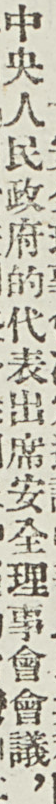中央人民政府的代表出席安全理事會會議，
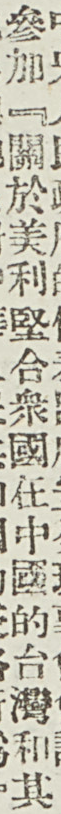參加『關於美利堅合衆國在中國的台灣和其
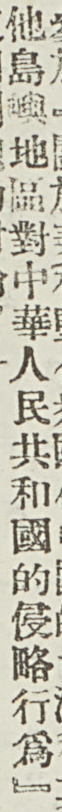他島嶼地區對中華人民共和國的侵略行爲』
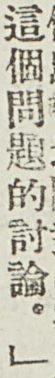這個問題的討論。」
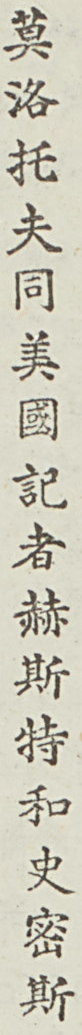莫洛托夫同美國記者赫斯特和史密斯
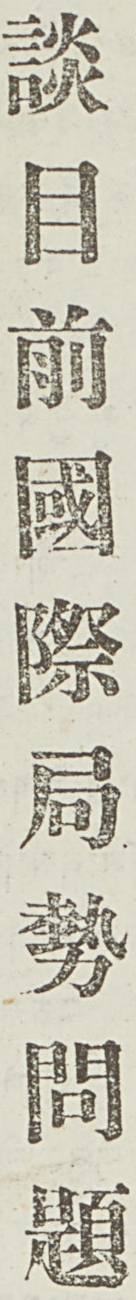談目前國際局勢問題
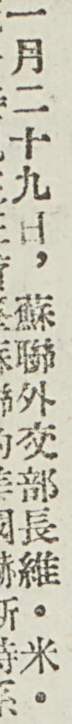一月二十九日，蘇聯外交部長維・米・
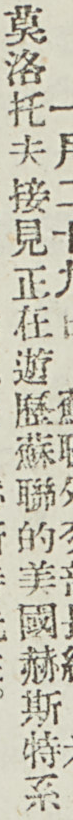莫洛托夫接見正在遊歷蘇聯的美國赫斯特系
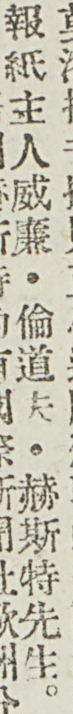報紙主人威廉・倫道夫・赫斯特先生。
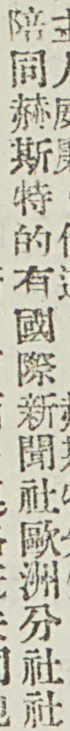陪同赫斯特的有國際新聞社歐洲分社社
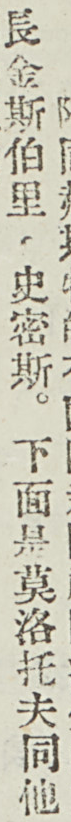長金斯伯里・史密斯。下面是莫洛托夫同他
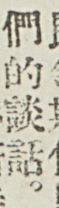們的談話。
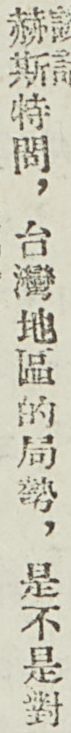赫斯特問，台灣地區的局勢，是不是對
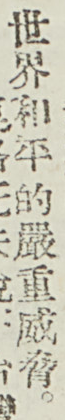世界和平的嚴重威脅。
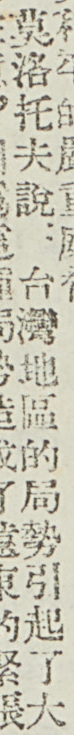莫洛托夫說：台灣地區的局勢引起了大
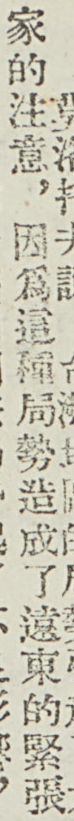家的注意，因爲這種局勢造成了遠東的緊張
